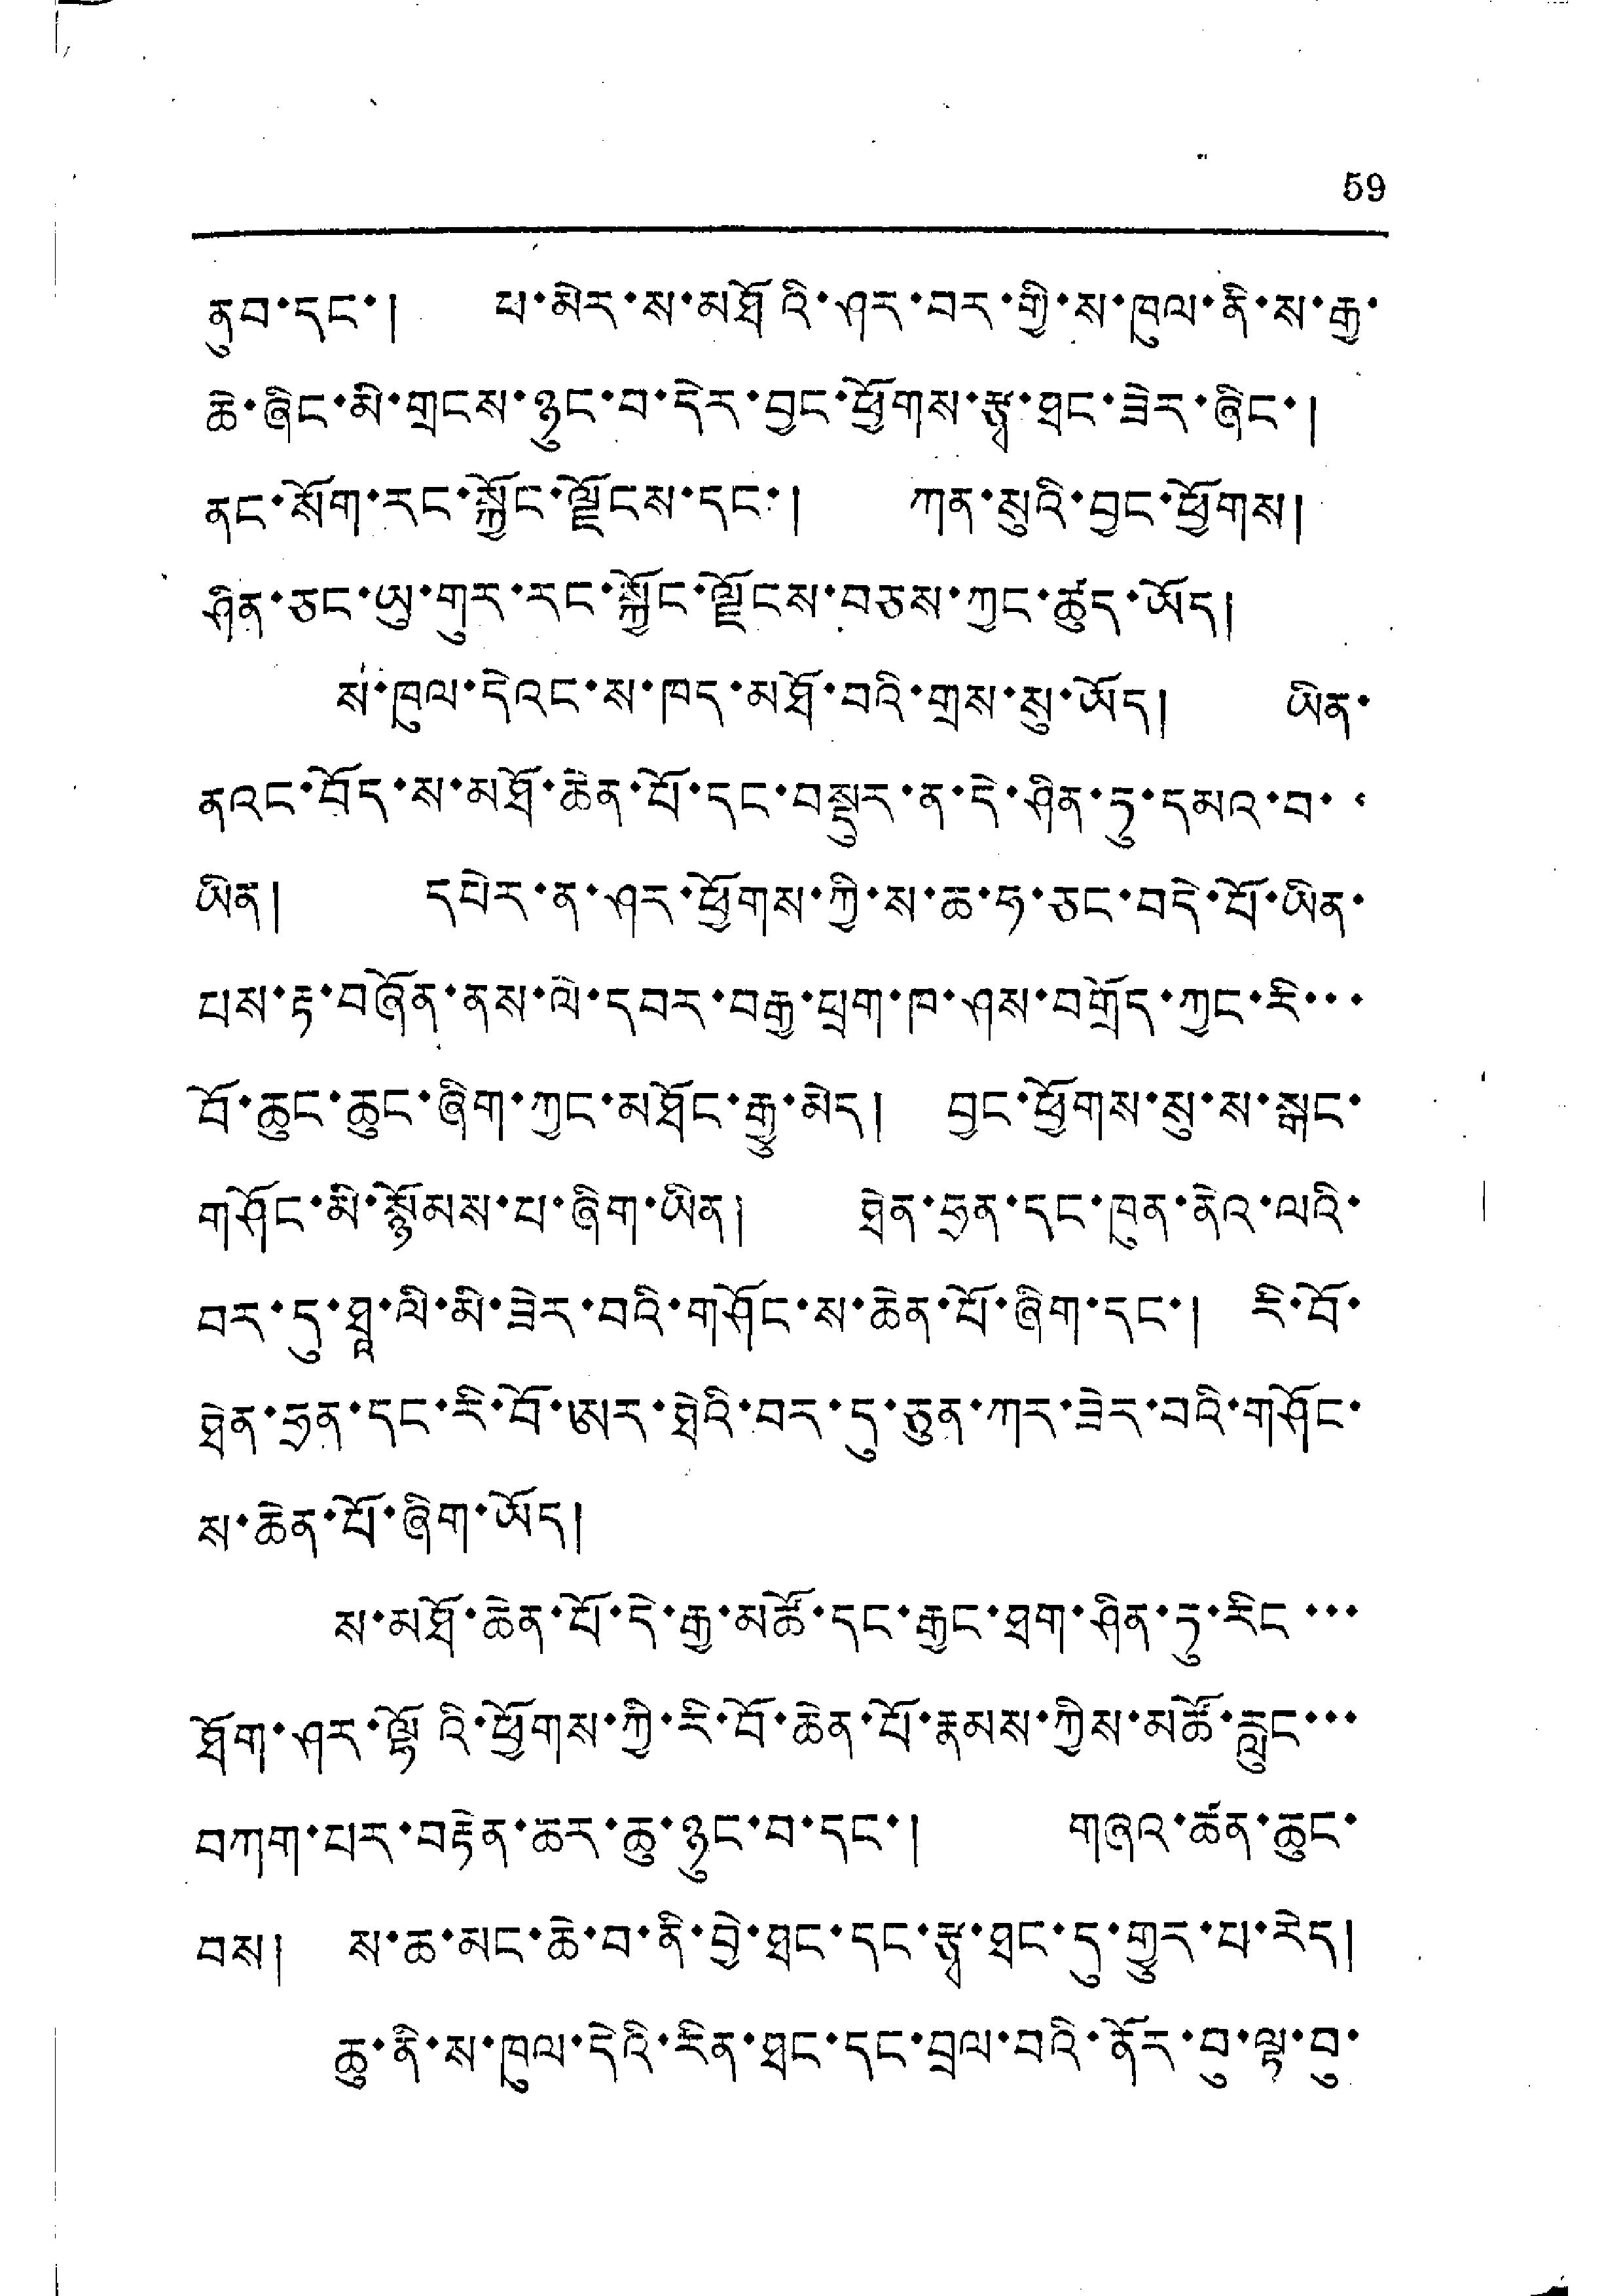59
ནུབ་དང་། ཕ་མེར་ས་མཐོའི་ཤར་བར་གྱི་ས་ཁུལ་ནི་ས་རྒྱ་
ཆེ་ཞིང་མི་གྲངས་ཉུང་བ་དེར་བྱང་ཕྱོགས་རྩྭ་ཐང་ཟེར་ཞིང་།
ནང་སོག་རང་སྐྱོང་ལྗོངས་དང་། ཀན་སུའི་བྱང་ཕྱོགས།
ཤིན་ཅང་ཡུ་གུར་རང་སྐྱོང་ལྗོངས་བཅས་ཀྱང་ཚུད་ཡོད།
ས་ཁུལ་དེའང་ས་ཁད་མཐོ་བའི་གྲས་སུ་ཡོད། ཡིན་
ནའང་བོད་ས་མཐོ་ཆེན་པོ་དང་བསྡུར་ན་དེ་ཤིན་ཏུ་དམའ་བ་་
ཡིན། དཔེར་ན་ཤར་ཕྱོགས་ཀྱི་ས་ཆ་ཧ་ཅང་བདེ་པོ་ཡིན་
པས་རྟ་བཞོན་ནས་ལེ་དབར་བརྒྱ་ཕྲག་ཁ་ཤས་བགྲོད་ཀྱང་རི་་་
བོ་ཆུང་ཆུང་ཞིག་ཀྱང་མཐོང་རྒྱུ་མེད། བྱང་ཕྱོགས་སུ་ས་སྒང་
གཤོང་མི་སྙོམས་པ་ཞིག་ཡིན། ཐེན་ཧྲན་དང་ཁུན་ནེའ་ལའི་
བར་དུ་ཐཱ་ལི་མི་ཟེར་བའི་གཤོང་ས་ཆེན་པོ་ཞིག་དང་། རི་བོ་
ཐེན་ཧྲན་དང་རི་བོ་ཨར་ཐེའི་བར་དུ་ཅུན་ཀར་ཟེར་བའི་གཤོང་
ས་ཆེན་པོ་ཞིག་ཡོད།
ས་མཐོ་ཆེན་པོ་དེ་རྒྱ་མཚོ་དང་རྒྱང་ཐག་ཤིན་ཏུ་རིང་་་
ཐོག་ཤར་ལྷོའི་ཕྱོགས་ཀྱི་རི་བོ་ཆེན་པོ་རྣམས་ཀྱིས་མཚོ་རླུང་་་
བཀག་པར་བརྟེན་ཆར་ཆུ་ཉུང་བ་དང་། གཞའ་ཚན་ཆུང་
བས། ས་ཆ་མང་ཆེ་བ་ནི་བྱེ་ཐང་དང་རྩྭ་ཐང་དུ་གྱུར་པ་རེད།
ཆུ་ནི་ས་ཁུལ་དེའི་རིན་ཐང་དང་བྲལ་བའི་ནོར་བུ་ལྟ་བུ་
